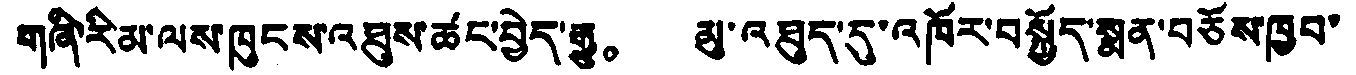གཞི་རིམ་ལས་ཁུངས་འཐུས་ཚང་བྱེད་རྒྱུ。 མུ་འཐུད་དུ་འཁོར་བསྐྱོད་སྨན་བཅོས་ཁྱབ་
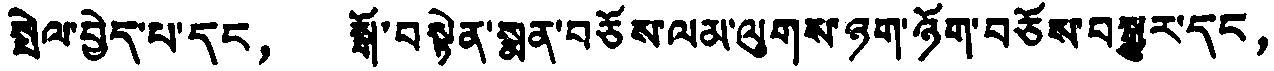སྤེལ་བྱེད་པ་དང， སྒོ་བསྟེན་སྨན་བཅོས་ལམ་ལུགས་ཉག་ཉོག་བཅོས་བསྒྱུར་དང，
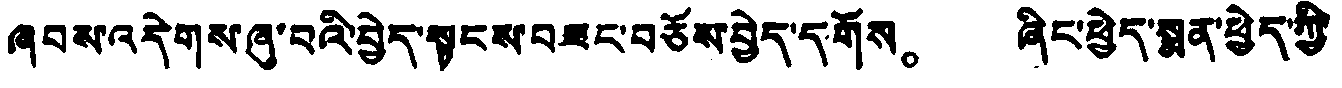ཞབས་འདེགས་ཞུ་བའི་བྱེད་སྟངས་བཟང་བཅོས་བྱེད་དགོས。 ཞིང་ཕྱེད་སྨན་ཕྱེད་ཀྱི་
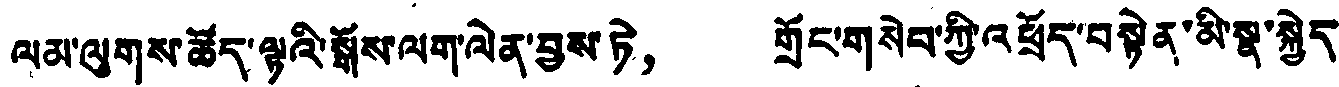ལམ་ལུགས་ཚོད་ལྟའི་སྒོས་ལག་ལེན་བྱས་ཏེ， གྲོང་གསེབ་ཀྱི་འཕྲོད་བསྟེན་མི་སྣ་སྐྱེད
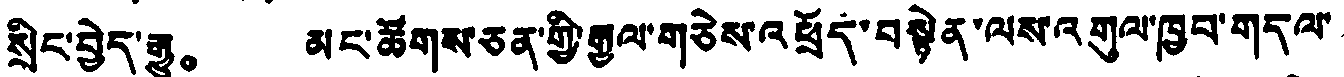སྲིང་བྱེད་རྒྱུ。 མང་ཚོགས་ཅན་གྱི་རྒྱལ་གཅེས་འཕྲོད་བསྟེན་ལས་འགུལ་ཁྱབ་གདལ་
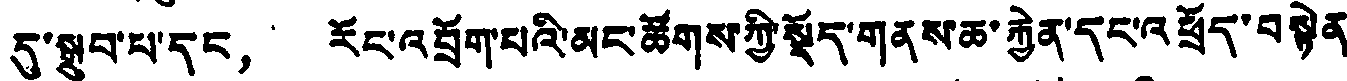དུ་སྒྲུབ་པ་དང， རོང་འབྲོག་པའི་མང་ཚོགས་ཀྱི་སྡོད་གནས་ཆ་རྐྱེན་དང་འཕྲོད་བསྟེན་
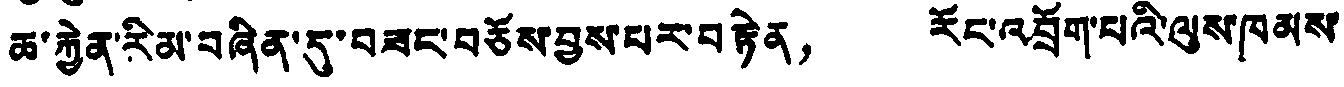ཆ་རྐྱེན་རིམ་བཞིན་དུ་བཟང་བཅོས་བྱས་པར་བརྟེན， རོང་འབྲོག་པའི་ལུས་ཁམས་
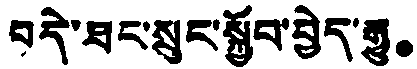བདེ་ཐང་སྲུང་སྐྱོབ་བྱེད་རྒྱུ。
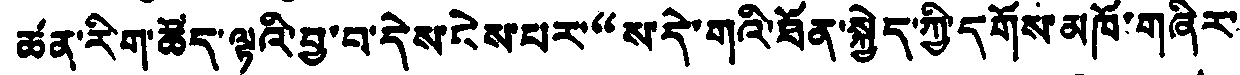ཚན་རིག་ཚོད་ལྟའི་བྱ་བ་དེས་ངེས་པར“ས་དེ་གའི་ཐོན་སྐྱེད་ཀྱི་དགོས་མཁོ་གཞིར་
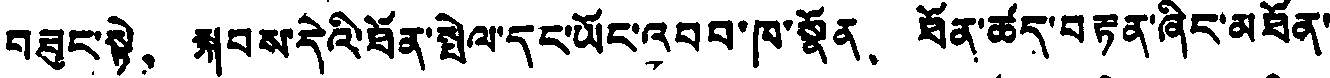བཟུང་སྟེ， སྐབས་དེའི་ཐོན་སྤེལ་དང་ཡོང་འབབ་ཁ་སྣོན、 ཐོན་ཚད་བརྟན་ཞིང་མཐོན་
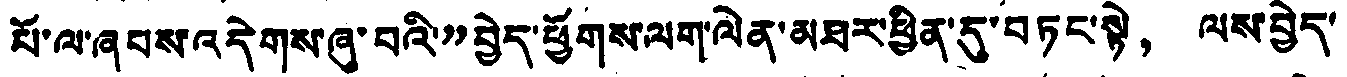པོ་ལ་ཞབས་འདེགས་ཞུ་བའི་”བྱེད་ཕྱོགས་ལག་ལེན་མཐར་ཕྱིན་དུ་བཏང་སྟེ， ལས་བྱེད་
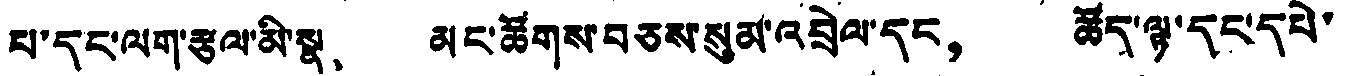པ་དང་ལག་རྩལ་མི་སྣ、 མང་ཚོགས་བཅས་སུམ་འབྲེལ་དང， ཚོད་ལྟ་དང་དཔེ་
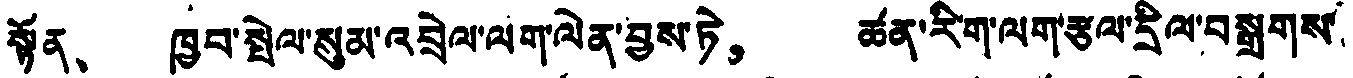སྟོན、 ཁྱབ་སྤེལ་སུམ་འབྲེལ་ལག་ལེན་བྱས་ཏེ， ཚན་རིག་ལག་རྩལ་དྲིལ་བསྒྲགས་
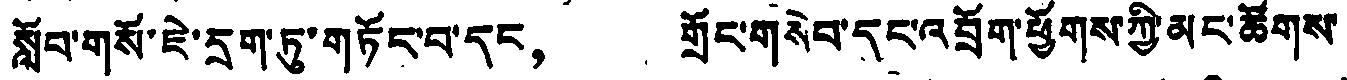སློབ་གསོ་ཇེ་དྲག་ཏུ་གཏོང་བ་དང， གྲོང་གསེབ་དང་འབྲོག་ཕྱོགས་ཀྱི་མང་ཚོགས་
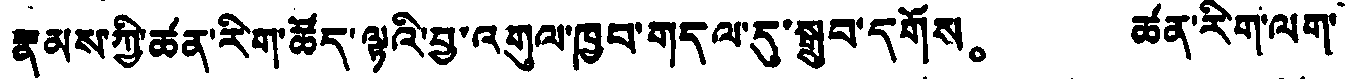རྣམས་ཀྱི་ཚན་རིག་ཚོད་ལྟའི་བྱ་འགུལ་ཁྱབ་གདལ་དུ་སྒྲུབ་དགོས。 ཚན་རིག་ལག་
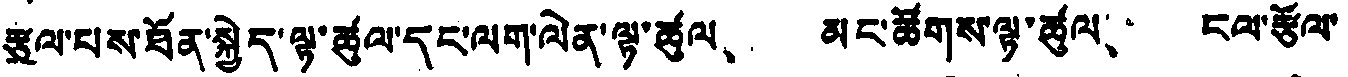རྩལ་པས་ཐོན་སྐྱེད་ལྟ་ཚུལ་དང་ལག་ལེན་ལྟ་ཚུལ、 མང་ཚོགས་ལྟ་ཚུལ、 ངལ་རྩོལ་
